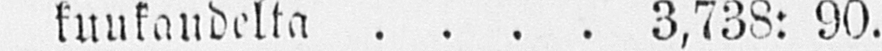kuukaudelta 3.738: 90.
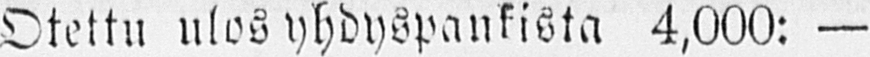Otettu ulos yhdyspankista 4,000: —
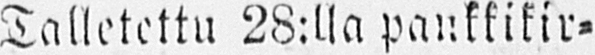Talletettu 28:lla pankkikir-
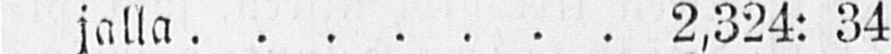jalla 2,324:34
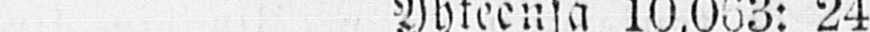Yhteensä 10,063:24.
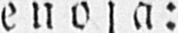M enoja:
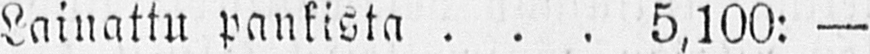Lainattu pankista 5,100: —
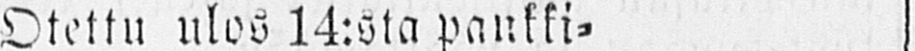Otettu ulos 14:sta pankki-
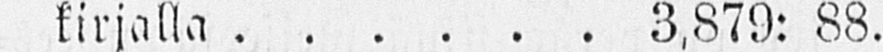kirjalla 3,879: 88.
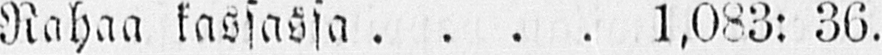Rahaa kassassa 1,083: 36.
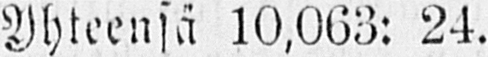Yhteensä 10.063: 24.
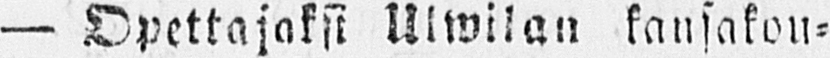— Opettajaksi Ulwilan kansakou-
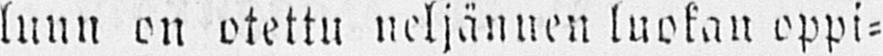luun on otettu neljännen luokan oppi-
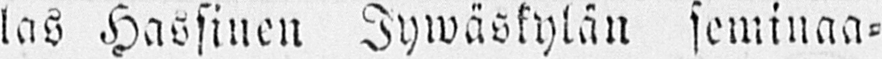las Hassinen Jywäskylän seminaa-
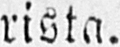rista.
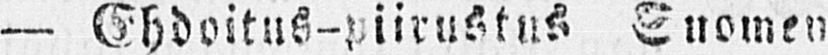— Ehdoitus-piirustus Suomen
